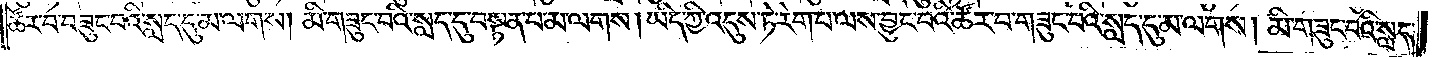ཚོར་བ་གཟུང་བའི་སླད་དུ་མ་ལགས། མི་གཟུང་བའི་སླད་དུ་བསྟན་པ་མ་ལགས། ཡིད་ཀྱི་འདུས་ཏེ་རེག་པ་ལས་བྱུང་བའི་ཚོར་བ་གཟུང་བའི་སླད་དུ་མ་ལགས། མི་གཟུང་བའི་སླད་
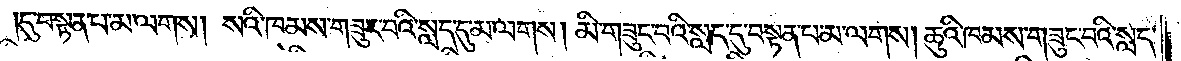དུ་བསྟན་པ་མ་ལགས། སའི་ཁམས་གཟུང་བའི་སླད་དུ་མ་ལགས། མི་གཟུང་བའི་སླད་དུ་བསྟན་པ་མ་ལགས། ཆུའི་ཁམས་གཟུང་བའི་སླད་
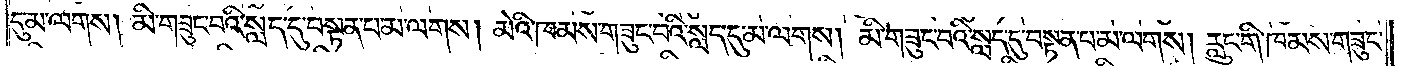དུ་མ་ལགས། མི་གཟུང་བའི་སླད་དུ་བསྟན་པ་མ་ལགས། མེའི་ཁམས་གཟུང་བའི་སླད་དུ་མ་ལགས། མི་གཟུང་བའི་སླད་དུ་བསྟན་པ་མ་ལགས། རླུང་གི་ཁམས་གཟུང་
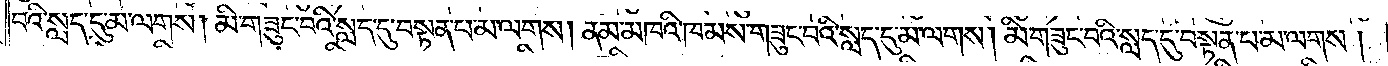བའི་སླད་དུ་མ་ལགས། མི་གཟུང་བའི་སླད་དུ་བསྟན་པ་མ་ལགས། ནམ་མཁའི་ཁམས་གཟུང་བའི་སླད་དུ་མ་ལགས། མི་གཟུང་བའི་སླད་དུ་བསྟན་པ་མ་ལགས།
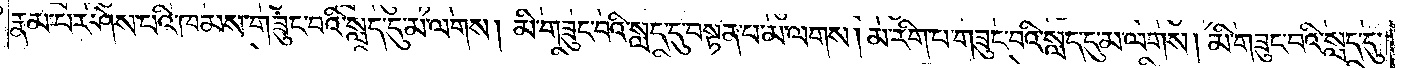རྣམ་པར་ཤེས་པའི་ཁམས་གཟུང་བའི་སླད་དུ་མ་ལགས། མི་གཟུང་བའི་སླད་དུ་བསྟན་པ་མ་ལགས། མ་རིག་པ་གཟུང་བའི་སླད་དུ་མ་ལགས། མི་གཟུང་བའི་སླད་དུ་
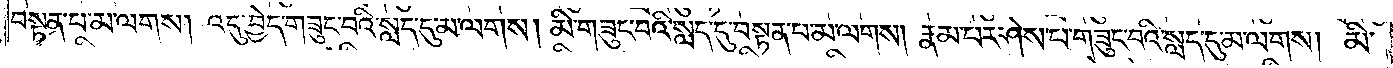བསྟན་པ་མ་ལགས། འདུ་བྱེད་གཟུང་བའི་སླད་དུ་མ་ལགས། མི་གཟུང་བའི་སླད་དུ་བསྟན་པ་མ་ལགས། རྣམ་པར་ཤེས་པ་གཟུང་བའི་སླད་དུ་མ་ལགས། མི་
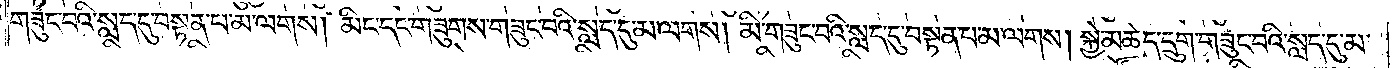གཟུང་བའི་སླད་དུ་བསྟན་པ་མ་ལགས། མིང་དང་གཟུགས་གཟུང་བའི་སླད་དུ་མ་ལགས། མི་གཟུང་བའི་སླད་དུ་བསྟན་པ་མ་ལགས། སྐྱེ་མཆེད་དྲུག་གཟུང་བའི་སླད་དུ་མ་
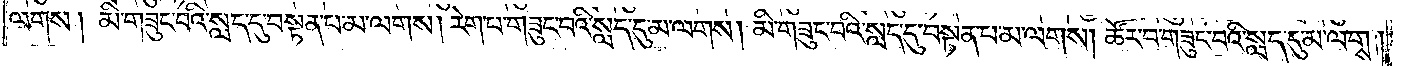ལགས། མི་གཟུང་བའི་སླད་དུ་བསྟན་པ་མ་ལགས། རེག་པ་གཟུང་བའི་སླད་དུ་མ་ལགས། མི་གཟུང་བའི་སླད་དུ་བསྟན་པ་མ་ལགས། ཚོར་བ་གཟུང་བའི་སླད་དུ་མ་ལགས།
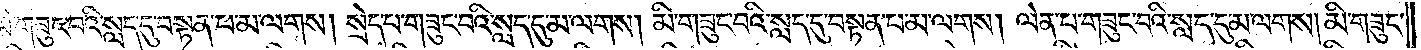མི་གཟུང་བའི་སླད་དུ་བསྟན་པ་མ་ལགས། སྲེད་པ་གཟུང་བའི་སླད་དུ་མ་ལགས། མི་གཟུང་བའི་སླད་དུ་བསྟན་པ་མ་ལགས། ལེན་པ་གཟུང་བའི་སླད་དུ་མ་ལགས། མི་གཟུང་
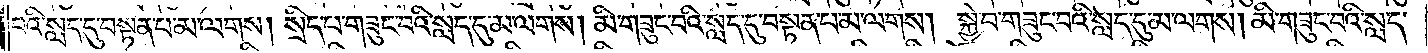བའི་སླད་དུ་བསྟན་པ་མ་ལགས། སྲིད་པ་གཟུང་བའི་སླད་དུ་མ་ལགས། མི་གཟུང་བའི་སླད་དུ་བསྟན་པ་མ་ལགས། སྐྱེ་བ་གཟུང་བའི་སླད་དུ་མ་ལགས། མི་གཟུང་བའི་སླད་
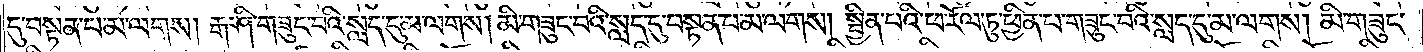དུ་བསྟན་པ་མ་ལགས། རྒ་ཤི་གཟུང་བའི་སླད་དུ་མ་ལགས། མི་གཟུང་བའི་སླད་དུ་བསྟན་པ་མ་ལགས། སྦྱིན་པའི་ཕ་རོལ་ཏུ་ཕྱིན་པ་གཟུང་བའི་སླད་དུ་མ་ལགས། མི་གཟུང་
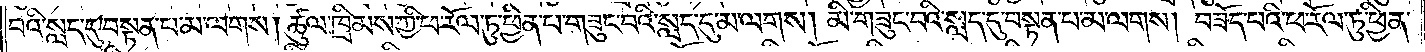བའི་སླད་དུ་བསྟན་པ་མ་ལགས། ཚུལ་ཁྲིམས་ཀྱི་ཕ་རོལ་ཏུ་ཕྱིན་པ་གཟུང་བའི་སླད་དུ་མ་ལགས། མི་གཟུང་བའི་སླད་དུ་བསྟན་པ་མ་ལགས། བཟོད་པའི་ཕ་རོལ་ཏུ་ཕྱིན་
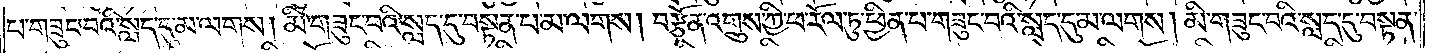པ་གཟུང་བའི་སླད་དུ་མ་ལགས། མི་གཟུང་བའི་སླད་དུ་བསྟན་པ་མ་ལགས། བརྩོན་འགྲུས་ཀྱི་ཕ་རོལ་ཏུ་ཕྱིན་པ་གཟུང་བའི་སླད་དུ་མ་ལགས། མི་གཟུང་བའི་སླད་དུ་བསྟན་
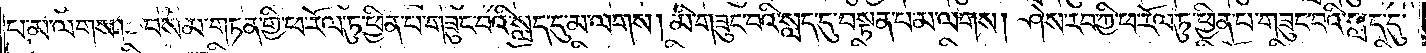པ་མ་ལགས། བསམ་གཏན་གྱི་ཕ་རོལ་ཏུ་ཕྱིན་པ་གཟུང་བའི་སླད་དུ་མ་ལགས། མི་གཟུང་བའི་སླད་དུ་བསྟན་པ་མ་ལགས། ཤེས་རབ་ཀྱི་ཕ་རོལ་ཏུ་ཕྱིན་པ་གཟུང་བའི་སླད་དུ་
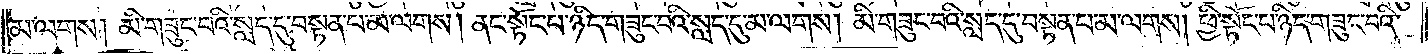མ་ལགས། མི་གཟུང་བའི་སླད་དུ་བསྟན་པ་མ་ལགས། ནང་སྟོང་པ་ཉིད་གཟུང་བའི་སླད་དུ་མ་ལགས། མི་གཟུང་བའི་སླད་དུ་བསྟན་པ་མ་ལགས། ཕྱི་སྟོང་པ་ཉིད་གཟུང་བའི་
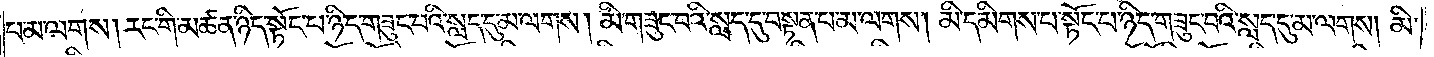པ་མ་ལགས། རང་གི་མཚན་ཉིད་སྟོང་པ་ཉིད་གཟུང་བའི་སླད་དུ་མ་ལགས། མི་གཟུང་བའི་སླད་དུ་བསྟན་པ་མ་ལགས། མི་དམིགས་པ་སྟོང་པ་ཉིད་གཟུང་བའི་སླད་དུ་མ་ལགས། མི་
